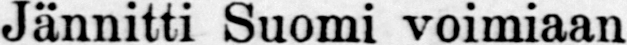jännitti Suomi voimiaan
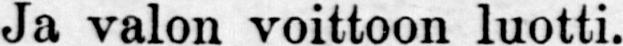ja valon voittoon luotti.
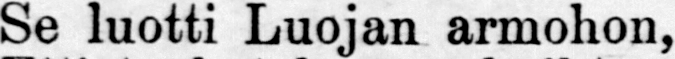Se luotti Luojan armohon,
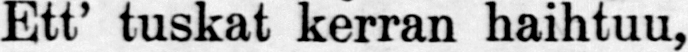Ett' tuskat kerran kaiktuu,
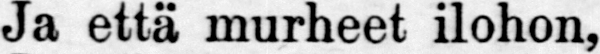ja että murheet ilohon,
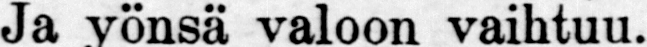ja yönsa valoon vaihtuu.
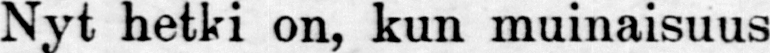Nyt hetki on, kun muinaisuus
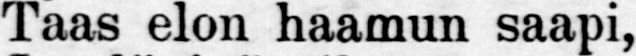Taas elon haamun saapi,
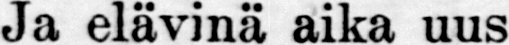ja elävinä aika uus
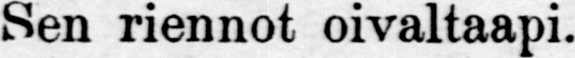Sen riennot oivaltaapi.
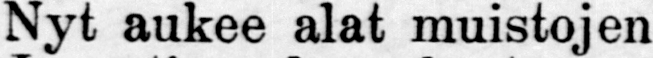Nyt aukee alat muistojen
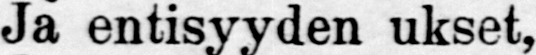ja entisyyden ukset,
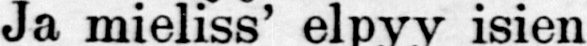ja mieliss' elpyy isien
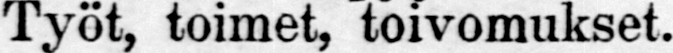Työt, toimet, toivomukset.
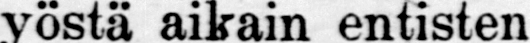Nyt yöstä aikain entisten
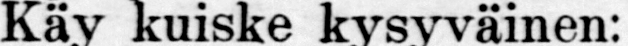Käy kuiske kysyväinen :
